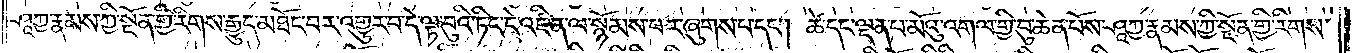ཤཱཀྱ་རྣམས་ཀྱི་སྔོན་གྱི་རིགས་རྒྱུད་མཐོང་བར་འགྱུར་བ་དེ་ལྟ་བུའི་ཏིང་ངེ་འཛིན་ལ་སྙོམས་པར་ཞུགས་པ་དང༌། ཚེ་དང་ལྡན་པ་མོའུ་འགལ་གྱི་བུ་ཆེན་པོས་ཤཱཀྱ་རྣམས་ཀྱི་སྔོན་གྱི་རིགས་
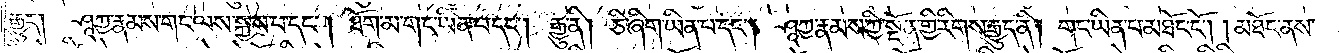རྒྱུད། ཤཱཀྱ་རྣམས་གང་ལས་སྐྱེས་པ་དང༌། ཐོག་མ་གང་ཡིན་པ་དང༌། རྒྱུ་ནི། ཅི་ཞིག་ཡིན་པ་དང༌། ཤཱཀྱ་རྣམས་ཀྱི་སྔོན་གྱི་རིགས་རྒྱུད་ནི། གང་ཡིན་པ་མཐོང་ངོ༌། །མཐོང་ནས་
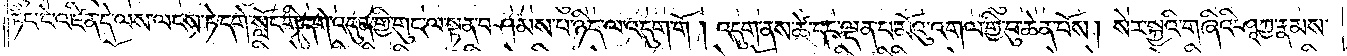ཏིང་ངེ་འཛིན་དེ་ལས་ལངས་ཏེ་དགེ་སློང་གི་དགེ་འདུན་གྱི་གུང་ལ་སྟན་བཤམས་པ་ཉིད་ལ་འདུག་གོ། །འདུག་ནས་ཚེ་དང་ལྡན་པ་མོའུ་འགལ་གྱི་བུ་ཆེན་པོས། སེར་སྐྱའི་གཞིའི་ཤཱཀྱ་རྣམས་
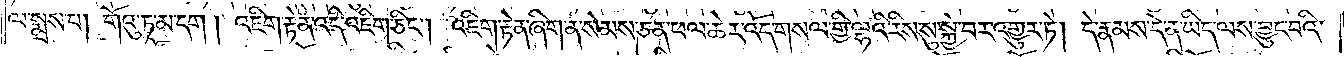ལ་སྨྲས་པ། གོའུ་ཏ་མ་དག། འཇིག་རྟེན་འདི་འཇིག་ཅིང༌། འཇིག་རྟེན་ཞིག་ན་སེམས་ཅན་ཕལ་ཆེར་འོད་གསལ་གྱི་ལྷའི་རིས་སུ་སྐྱེ་བར་འགྱུར་ཏེ། དེ་རྣམས་དེ་ན་ཡིད་ལས་བྱུང་བའི་
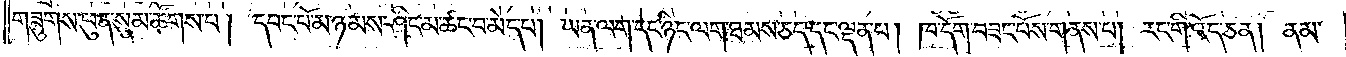གཟུགས་ཕུན་སུམ་ཚོགས་པ། དབང་པོ་མ་ཉམས་ཤིང་མ་ཚང་བ་མེད་པ། ཡན་ལག་དང་ཉིད་ལག་ཐམས་ཅད་དང་ལྡན་པ། ཁ་དོག་བཟང་བོས་གནས་པ། རང་གི་འོད་ཅན། ནམ་
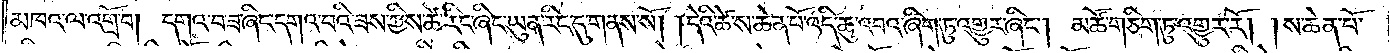མཁའ་ལ་འགྲོ་བ། དགའ་བ་ཟ་ཞིང་དགའ་བའི་ཟས་ཀྱིས་ཚེ་རིང་ཞིང་ཡུན་རིང་དུ་གནས་སོ། །དེའི་ཚེ་ས་ཆེན་པོ་འདི་ཆུ་འབའ་ཞིག་ཏུ་འགྱུར་ཞིང༌། མཚོ་གཅིག་ཏུ་འགྱུར་རོ། །ས་ཆེན་པོ་
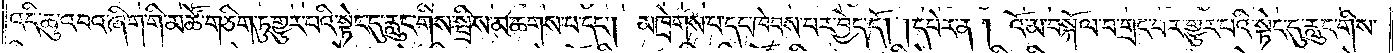འདི་ཆུ་འབའ་ཞིག་གི་མཚོ་གཅིག་ཏུ་གྱུར་པའི་སྟེང་དུ་རླུང་གིས་སྤྲིས་མ་ཆགས་པ་དང༌། མཁྲེགས་པ་དང༌། ཁེབས་པར་བྱེད་དོ། །དཔེར་ན། འོ་མ་བསྐོལ་བ་གྲང་བར་གྱུར་བའི་སྟེང་དུ་རླུང་གིས་
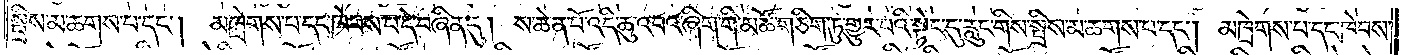སྤྲིས་མ་ཆགས་པ་དང༌། མཁྲེགས་པ་དང་ཁེབས་པ་དེ་བཞིན་དུ། ས་ཆེན་པོ་འདི་ཆུ་འབའ་ཞིག་གི་མཚོ་གཅིག་ཏུ་གྱུར་པའི་སྟེང་དུ་རླུང་གིས་སྤྲིས་མ་ཆགས་པ་དང༌། མཁྲེགས་པ་དང་ཁེབས་
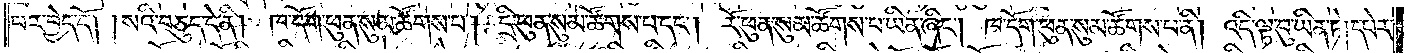བར་བྱེད་དོ། །སའི་བཅུད་དེ་ནི། ཁ་དོག་ཕུན་སུམ་ཚོགས་པ། དྲི་ཕུན་སུམ་ཚོགས་པ་དང༌། རོ་ཕུན་སུམ་ཚོགས་པ་ཡིན་ཞིང༌། ཁ་དོག་ཕུན་སུམ་ཚོགས་པ་ནི། འདི་ལྟ་བུ་ཡིན་ཏེ། དཔེར་
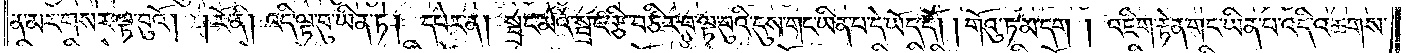ན་མར་གསར་ལྟ་བུའོ། །རོ་ནི། འདི་ལྟ་བུ་ཡིན་ཏེ། དཔེར་ན། སྦྲང་མའི་སྦྲང་རྩི་བཙིར་བ་ལྟ་བུའི་དུས་གང་ཡིན་པ་དེ་ཡོད་དོ། །གོའུ་ཏ་མ་དག །འཇིག་རྟེན་གང་ཡིན་པ་འདི་འཆགས་
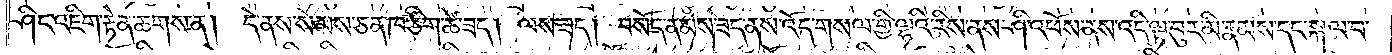ཤིང་འཇིག་རྟེན་ཆགས་ན། དེ་ནས་སེམས་ཅན་ཁ་ཅིག་ཚེ་ཟད། ལས་ཟད། བསོད་ནམས་ཟད་ནས་འོད་གསལ་གྱི་ལྷའི་རིས་ནས་ཤི་འཕོས་ནས་འདི་ལྟ་བུར་མི་རྣམས་དང་སྐལ་བ་
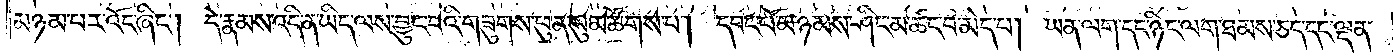མཉམ་པར་འོང་ཞིང༌། དེ་རྣམས་འདི་ན་ཡིད་ལས་བྱུང་བའི་གཟུགས་ཕུན་སུམ་ཚོགས་པ། དབང་པོ་མ་ཉམས་ཤིང་མ་ཚང་བ་མེད་པ། ཡན་ལག་དང་ཉིང་ལག་ཐམས་ཅད་དང་ལྡན་
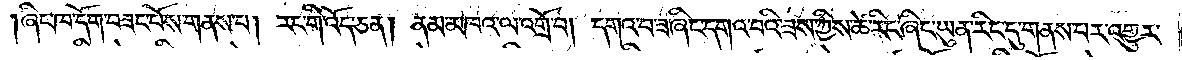ཞིང་ཁ་དོག་བཟང་པོས་གནས་པ། རང་གི་འོད་ཅན། ནམ་མཁའ་ལ་འགྲོ་བ། དགའ་བ་ཟ་ཞིང་དགའ་བའི་ཟས་ཀྱིས་ཚེ་རིང་ཞིང་ཡུན་རིང་དུ་གནས་པར་འགྱུར་
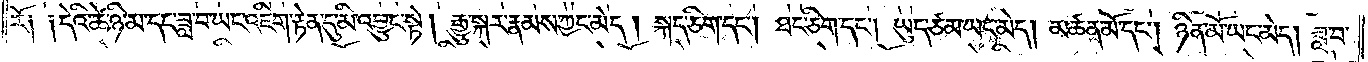རོ༑ ༑དེའི་ཚེ་ཉི་མ་དང་ཟླ་བ་ཡང་འཇིག་རྟེན་དུ་མི་འབྱུང་སྟེ། རྒྱུ་སྐར་རྣམས་ཀྱང་མེད། སྐད་ཅིག་དང༌། ཐང་ཅིག་དང༌། ཡུད་ཙམ་ཡང་མེད། མཚན་མོ་དང༌། ཉིན་མོ་ཡང་མེད། ཟླ་བ་
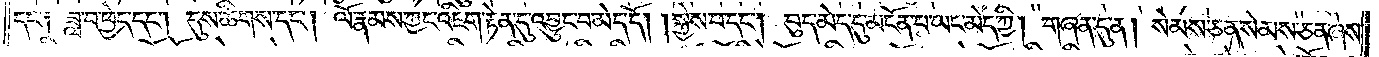དང༌། ཟླ་བ་ཕྱེད་དང༌། དུས་ཚིགས་དང༌། ལོ་རྣམས་ཀྱང་འཇིག་རྟེན་དུ་འབྱུང་བ་མེད་དོ། །སྐྱེས་པ་དང༌། བུད་མེད་དུ་མངོན་པ་ཡང་མེད་ཀྱི། གཞན་དུ་ན། སེམས་ཅན་སེམས་ཅན་ཞེས་
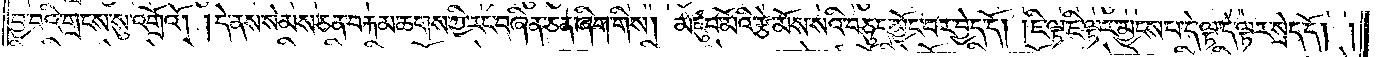བྱ་བའི་གྲངས་སུ་འགྲོའོ། །དེ་ནས་སེམས་ཅན་བརྐམ་ཆགས་ཀྱི་རང་བཞིན་ཅན་ཞིག་གིས། མཛུབ་མོའི་རྩེ་མོས་སའི་བཅུད་མྱོང་བར་བྱེད་དོ། །ཇི་ལྟ་ཇི་ལྟར་མྱངས་པ་དེ་ལྟ་དེ་ལྟར་སྲེད་དོ། །
